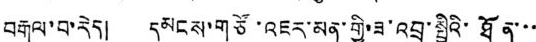བརྒལ་བ་རེད། དམངས་གཙོ་འཇར་མན་གྱི་ཟ་འབྲུ་སྤྱིའི་ཐོན་་་
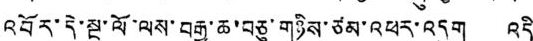འབོར་དེ་སྔ་ལོ་ལས་བརྒྱ་ཆ་བཅུ་གཉིས་ཙམ་འཕར་འདུག འདི་
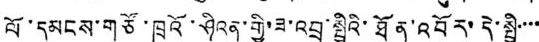ལོ་དམངས་གཙོ་ཁྲའོ་ཤིའན་གྱི་ཟ་འབྲུ་སྤྱིའི་ཐོན་འབོར་དེ་སྤྱི་་་་
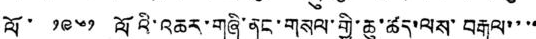ལོ་ ༡༩༦༡ ལོའི་འཆར་གཞི་ནང་གསལ་གྱི་ཆུ་ཚད་ལས་བརྒལ་་་་
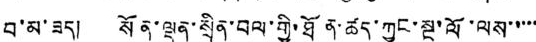བ་མ་ཟད། སོན་ལྡན་སྲིན་བལ་གྱི་ཐོན་ཚད་ཀྱང་སྔ་ལོ་ལས་་་་་
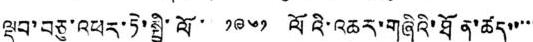ལྡབ་བཅུ་འཕར་ཏེ་སྤྱི་ལོ་ ༡༩༦༡ ལོའི་འཆར་གཞིའི་ཐོན་ཚད་་་་་
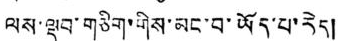ལས་ལྡབ་གཅིག་གིས་མང་བ་ཡོད་པ་རེད།
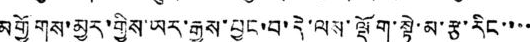མགྱོགས་མྱུར་གྱིས་ཡར་རྒྱས་བྱུང་བ་དེ་ལས་ལྡོག་སྟེ་མ་རྩ་རིང་་་་
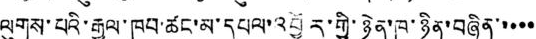ལུགས་པའི་རྒྱལ་ཁབ་ཚང་མ་དཔལ་འབྱོར་གྱི་ཉེན་ཁ་ཉིན་བཞིན་་་་་
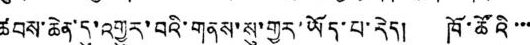ཚབས་ཆེན་དུ་འགྱུར་བའི་གནས་སུ་གྱར་ཡོད་པ་རེད། ཁོ་ཚོའི་་་
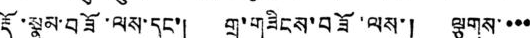རྡོ་སྣུམ་བཟོ་ལས་དང་། གྲུ་གཟིངས་བཟོ་ལས་། ལྕགས་་་་
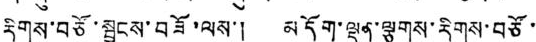རིགས་བཙོ་སྦྱངས་བཟོ་ལས་། མདོག་ལྡན་ལྕགས་རིགས་བཙོ་
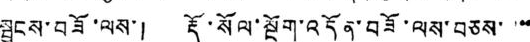སྦྱངས་བཟོ་ལས་། རྡོ་སོལ་སྔོག་འདོན་བཟོ་ལས་བཅས་་་་
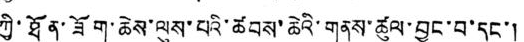ཀྱི་ཐོན་ཟོག་ཆེས་ལུས་པའི་ཚབས་ཆེའི་གནས་ཚུལ་བྱུང་བ་དང་།
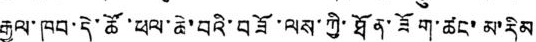རྒྱལ་ཁབ་དེ་ཚོ་ཕལ་ཆེ་བའི་བཟོ་ལས་ཀྱི་ཐོན་ཟོག་ཚང་མ་རིམ
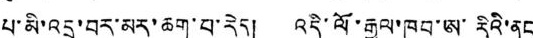པ་མི་འདྲ་བར་མར་ཆག་པ་རེད། འདི་ལོ་རྒྱལ་ཁབ་ཨ་རིའི་ནང
